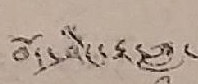བོད་ཤིང་རྟ་ཟླ་
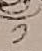༡
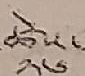ཚེས་
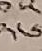༢༦
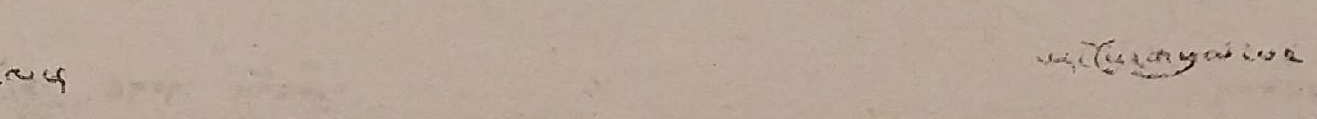ལ་། པར་ངོས་གསུམ་པ་
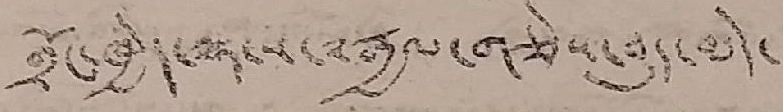གྲོང་ཁྱེར་ལྷ་ས་༸རྒྱལ་གཅེས་བུད་མེད་
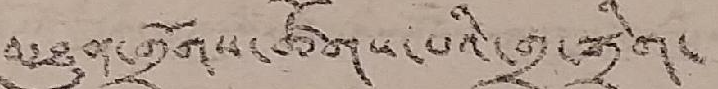མཐུན་གྲོགས་ཚོགས་པའི་གྲྭ་སྒྲིག་
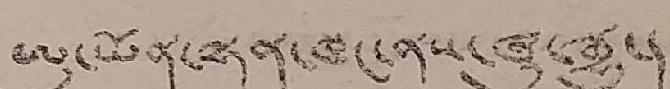ཨུ་ཡོན་ལྷན་ཁང་ནས་ཞུ་རྒྱུ་།
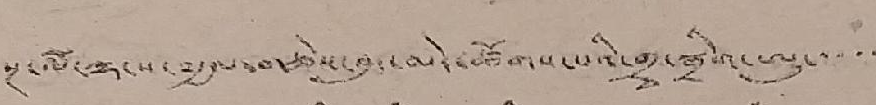སྔ་ལོ་ལྷ་ས་༸རྒྱལ་གཅེས་བུད་མེད་ཚོགས་པའི་གྲྭ་སྒྲིག་ཨུ་་་་་
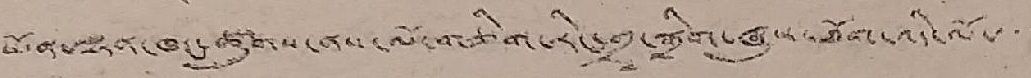ཡོན་ལྷན་ཁང་ཚུགས་ནས་ལོ་གཅིག་རིང་གྲྭ་སྒྲིག་ཞུས་ཐོག་འདི་ལོ་་་་
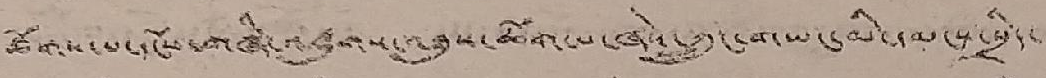ཚོགས་པ་དངོས་གཞི་འཛུགས་མཐུས་ཚོག་པ་ཞེས་ཀྲུང་གཡང་མི་དམངས་སྲིད་
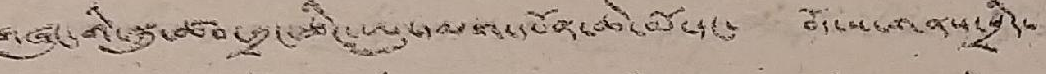གཞུང་གི་སྐུ་ཚབ་ཀྲང་ཅིང་ཨུ་དམག་དཔོན་ཆེ་མོ་དང་ བོད་ས་གནས་སྲིད་
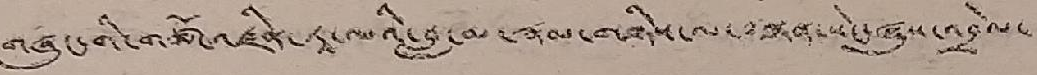གཞུང་གི་གཙོ་འཛིན་ཏཱ་ལའི་བླ་མ་རྣམ་གཉིས་ལ་སྙན་སེང་ཞུས་འབྲེལ་
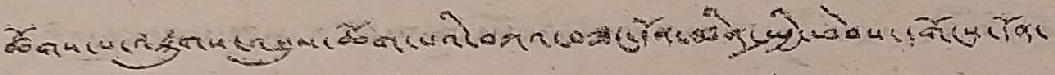ཚོགས་པ་འཛུགས་འཐུལ་ཚོག་པའི་བཀའ་དོན་མིན་སྤྱི་ཕེབས་དགོངས་དོན་
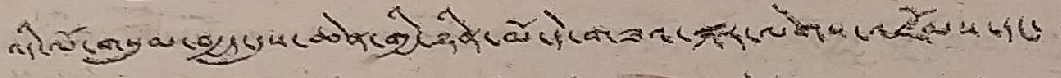འདི་ལོ་གསུམ་བརྒྱད་དུས་ཆེན་གྱི་ཉིན་མོ་དེ་གཟའ་སྐར་ལེགས་འཛོམས་དང་ ་
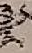༣
